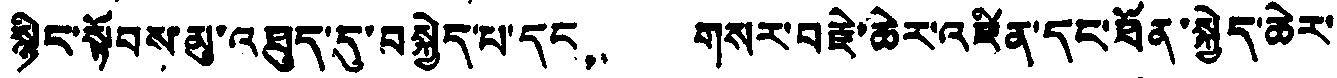སྙིང་སྟོབས་མུ་འཐུད་དུ་བསྐྱེད་པ་དང， གསར་བརྗེ་ཆེར་འཛིན་དང་ཐོན་སྐྱེད་ཆེར་
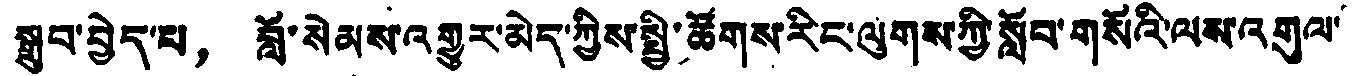སྒྲུབ་བྱེད་པ， བློ་སེམས་འགྱུར་མེད་ཀྱིས་སྤྱི་ཚོགས་རིང་ལུགས་ཀྱི་སློབ་གསོའི་ལས་འགུལ་
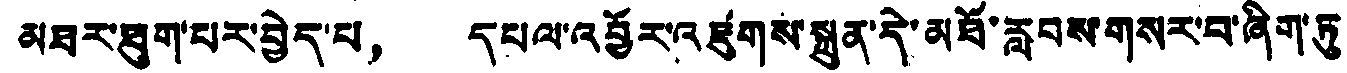མཐར་ཐུག་པར་བྱེད་པ， དཔལ་འབྱོར་འཛུགས་སྐྲུན་དེ་མཐོ་རླབས་གསར་བ་ཞིག་ཏུ་
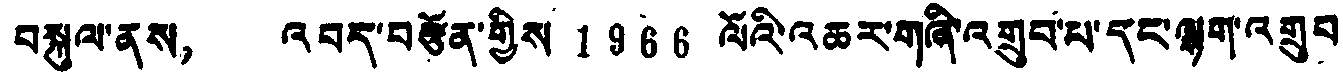བསྐུལ་ནས， འབད་བརྩོན་གྱིས 1966 ལོའི་འཆར་གཞི་འགྲུབ་པ་དང་ལྷག་འགྲུབ
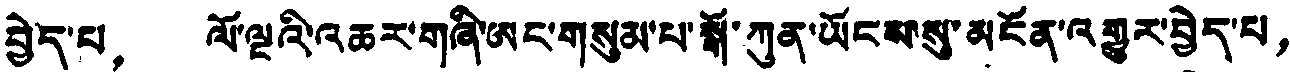བྱེད་པ， ལོ་ལྔའི་འཆར་གཞི་ཨང་གསུམ་པ་སྒོ་ཀུན་ཡོངས་སུ་མངོན་འགྱུར་བྱེད་པ，
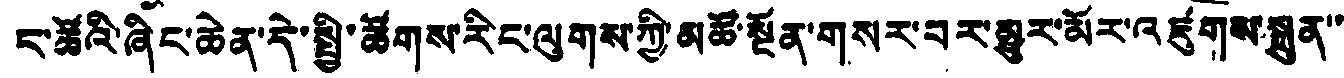ང་ཚོའི་ཞིང་ཆེན་དེ་སྤྱི་ཚོགས་རིང་ལུགས་ཀྱི་མཚོ་སྔོན་གསར་བར་མྱུར་མོར་འཛུགས་སྐྲུན་་
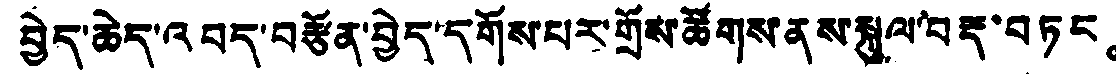བྱེད་ཆེད་འབད་བརྩོན་བྱེད་དགོས་པར་གྲོས་ཚོགས་ནས་སྐུལ་བརྡ་བཏང。
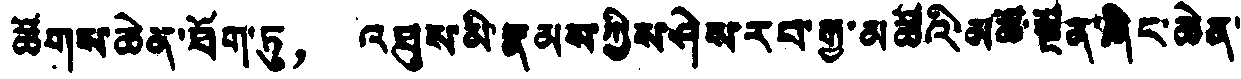ཚོགས་ཆེན་ཐོག་ཏུ， འཐུས་མི་རྣམས་ཀྱིས་ཤེས་རབ་རྒྱ་མཚོའི་མཚོ་སྔོན་ཞིང་ཆེན་
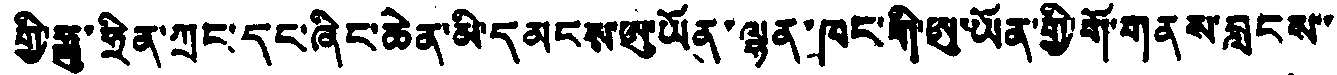གྱི་ཧྥུ་ཧྲིན་ཀྲང་དང་ཞིང་ཆེན་མི་དམངས་ཨུ་ཡོན་ལྷན་ཁང་གི་ཨུ་ཡོན་གྱི་གོ་གནས་བླངས་་
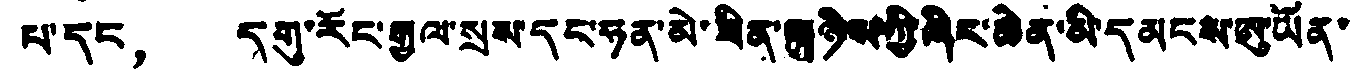པ་དང， དགུ་རོང་རྒྱལ་སྲས་དང་ཧན་མེ་ཟིན་ཁཉིས་ཀྱི་ཞིང་ཆེན་མི་དམངས་ཨུ་ཡོན་
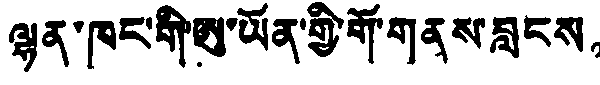ལྷན་ཁང་གི་ཨུ་ཡོན་གྱི་གོ་གནས་བླངས。
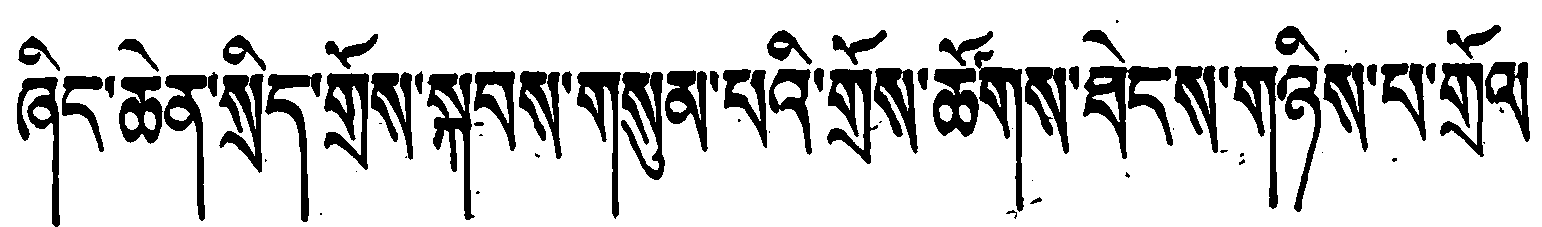ཞིང་ཆེན་སྲིད་གྲོས་སྐབས་གསུམ་པའི་གྲོས་ཚོགས་ཐེངས་གཉིས་པ་གྲོལ་
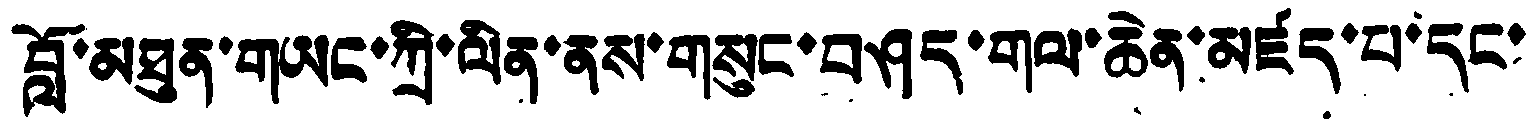བློ་མཐུན་གཡང་ཀྲི་ལིན་ནས་གསུང་བཤད་གལ་ཆེན་མཛད་པ་དང་
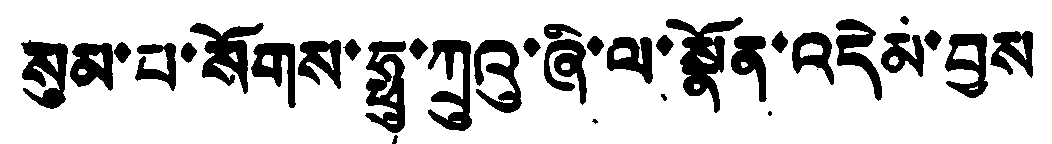སུམ་པ་སོགས་ཧྥུ་ཀྲུའུ་ཞི་ལ་སྣོན་འདེམ་བྱས
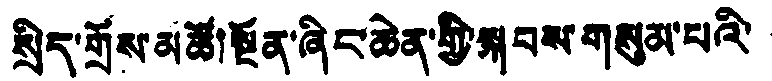སྲིད་གྲོས་མཚོ་སྔོན་ཞིང་ཆེན་གྱི་སྐབས་གསུམ་པའི་
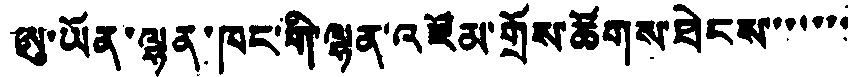ཨུ་ཡོན་ལྷན་ཁང་གི་ལྷན་འཛོམ་གྲོས་ཚོགས་ཐེངས་་་་་་
